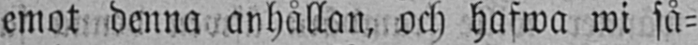emot denna anhållan, och hafwa wi så-
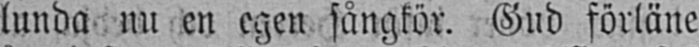lunda nu en egen sångkör. Gud förläne
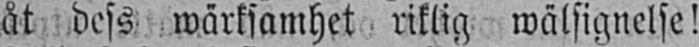åt dess wärksamhet riklig wälsignelse!
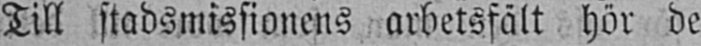Till stadsmissionens arbetsfält hör de
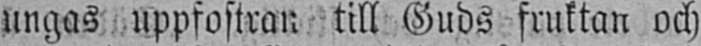ungas uppfostran till Guds fruktan och
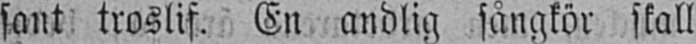sant troslif. En andlig sångkör skall
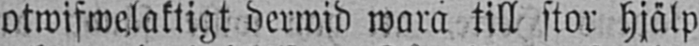otwifwelaktigt derwid wara till stor hjälp
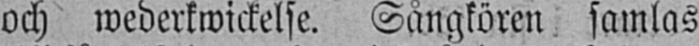och wederkwickelse. Sångkören samlas
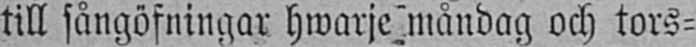till sångöfningar hwarje måndag och tors-
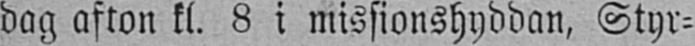dag afton kl. 8 i missionshyddan, Styr-
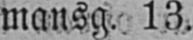mansg. 13.
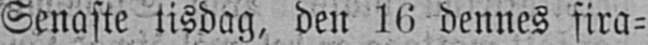Senaste tisdag, den l6 dennes fira-
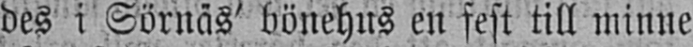des i Sörnäs bönehus en fest till minne
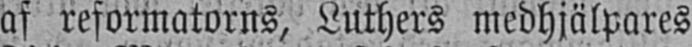af reformatorns, Luthers medhjälpares
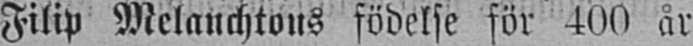Filip Melanchtons födelse för 400 år
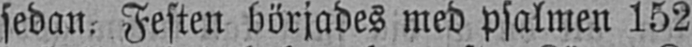sedan. Festen börjades med psalmen 152
